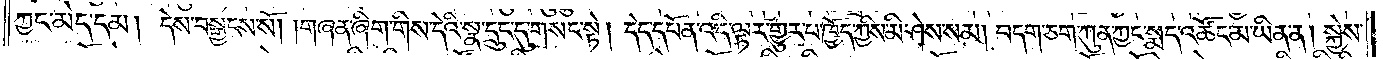ཀྱང་མེད་དམ། དེས་བསྒྱངས་སོ། །གཞན་ཞིག་གིས་དེའི་སྣ་དྲུང་དུ་གསང་སྟེ། དེད་དཔོན་འདི་ལྟར་གྱུར་པ་ཁྱོད་ཀྱིས་མི་ཤེས་སམ། བདག་ཅག་ཀུན་ཀྱང་སྨད་འཚོང་མ་ཡིན་ན། སྐྱེས་
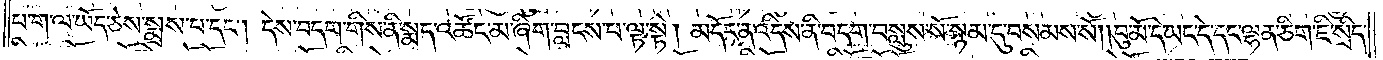པ་ག་ལ་ཡོད་ཅེས་སྨྲས་པ་དང༌། དེས་བདག་གིས་ནི་སྨད་འཚོང་མ་ཞིག་བླངས་པ་ལྟ་སྟེ། མདོར་ན་འདིས་ནི་བདག་བསླུས་སོ་སྙམ་དུ་བསམས་སོ། །བུ་མོ་དེ་ཡང་དེ་དང་ལྷན་ཅིག་ཇི་སྲིད་
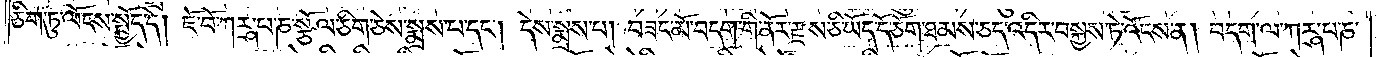ཅིག་ཏུ་ལོངས་སྤྱོད་དེ། ཇོ་བོ་ཀཪྴ་པ་ཎ་སྩོལ་ཅིག་ཅེས་སྨྲས་པ་དང༌། དེས་སྨྲས་པ། བཟང་མོ་བདག་གི་ནོར་རྫས་ཅི་ཡོད་དོ་ཅོག་ཐམས་ཅད་འདིར་བསྐྱས་ཏེ་འོངས་ན། བདག་ལ་ཀཪྴ་པ་ཎ་
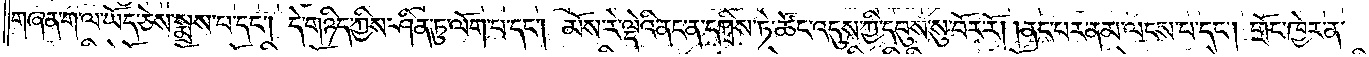གཞན་ག་ལ་ཡོད་ཅེས་སྨྲས་པ་དང༌། དེ་གཉིད་ཀྱིས་ཤིན་ཏུ་ལོག་པ་དང༌། མོས་རེ་ལྡེའི་ནང་ན་དཀྲིས་ཏེ་ཚོང་འདུས་ཀྱི་དབུས་སུ་བོར་རོ། །ནང་པར་ནམ་ལངས་པ་དང༌། གྲོང་ཁྱེར་ན་
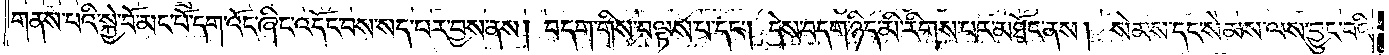གནས་པའི་སྐྱེ་བོ་མང་པོ་དག་འོང་ཞིང་འདོང་བས་སད་པར་བྱས་ནས། བདག་གིས་བལྟས་པ་དང༌། དེས་བདག་ཉིད་མི་རིགས་པར་མཐོང་ནས། སེམས་དང་སེམས་ལས་བྱུང་བའི་
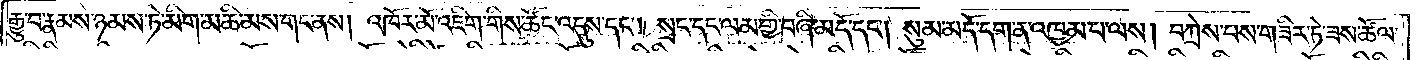རྒྱུ་བ་རྣམས་ཉམས་ཏེ་མིག་མཆི་མས་གང་ནས། འཁོར་མོ་འཇིག་གིས་ཚོང་འདུས་དང༌། སྲང་དང་ལམ་གྱི་བཞི་མདོ་དང༌། སུམ་མདོ་དག་ན་འཁྱམ་པ་ལས། བཀྲེས་པས་གཟིར་ཏེ་ཟས་ཚོལ་
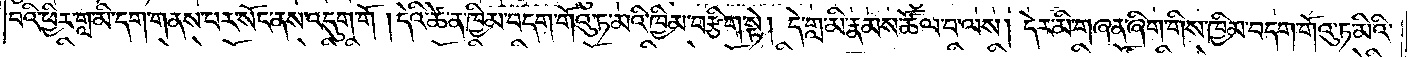པའི་ཕྱིར་གླ་མི་དག་གནས་པར་སོང་ནས་འདུག་གོ །དེའི་ཚེ་ན་ཁྱིམ་བདག་གོའུ་ཏ་མའི་ཁྱིམ་བརྩིག་སྟེ། དེ་གླ་མི་རྣམས་ཚོལ་བ་ལས། དེར་མི་གཞན་ཞིག་གིས་ཁྱིམ་བདག་གོའུ་ཏ་མིའི་
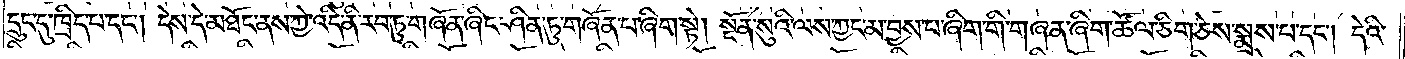དྲུང་དུ་ཁྲིད་པ་དང༌། དེས་དེ་མཐོང་ནས་ཀྱེ་འདི་ནི་རབ་ཏུ་གཞོན་ཞིང་ཤིན་ཏུ་གཞོན་པ་ཞིག་སྟེ། སྔོན་སུའི་ལས་ཀྱང་མ་བྱས་པ་ཞིག་གི་གཞན་ཞིག་ཚོལ་ཅིག་ཅེས་སྨྲས་པ་དང༌། དེའི་
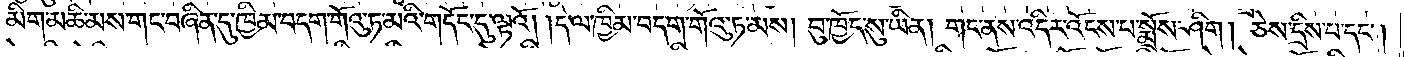མིག་མཆི་མས་གང་བཞིན་དུ་ཁྱིམ་བདག་གོའུ་ཏ་མའི་གདོང་དུ་ལྟའོ། །དེ་ལ་ཁྱིམ་བདག་གོའུ་ཏ་མས། བུ་ཁྱོད་སུ་ཡིན། གང་ནས་འདིར་འོངས་པ་སྨྲོས་ཤིག། ཅེས་དྲིས་པ་དང༌།
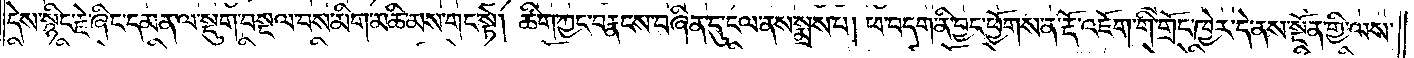དེས་སྙིང་རྗེ་ཞིང་དམན་ལ་སྡུག་བསྔལ་བས་མིག་མཆི་མས་གང་སྟེ། ཚིག་ཀྱང་བརྣངས་བཞིན་དུ་ངལ་ནས་སྨྲས་པ། ཕ་བདག་ནི་བྱང་ཕྱོགས་ན་རྡོ་འཇོག་གི་གྲོང་ཁྱེར་དེ་ནས་སྔོན་གྱི་ལས་
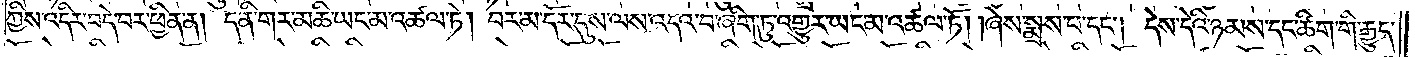ཀྱིས་འདིར་བདེ་བར་ཕྱིན་ན། ད་ནི་གར་མཆི་ཡང་མ་འཚལ་ཏེ། བར་མ་དོར་དུས་ལས་འདའ་བ་ཞིག་ཏུ་འགྱུར་ཡང་མ་འཚལ་ཏོ། །ཞེས་སྨྲས་པ་དང༌། དེས་དེའི་ཉམས་དང་ཚིག་གི་རྒྱུད་
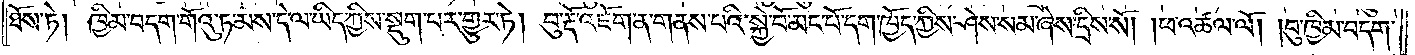ཐོས་ཏེ། ཁྱིམ་བདག་གོའུ་ཏ་མས་དེ་ལ་ཡིད་ཀྱིས་སྡུག་པར་གྱུར་ཏེ། བུ་རྡོ་འཇོག་ན་གནས་པའི་སྐྱེ་བོ་མང་པོ་དག་ཁྱོད་ཀྱིས་ཤེས་སམ་ཞེས་དྲིས་སོ། །ཕ་འཚལ་ལོ། །བུ་ཁྱིམ་བདག་
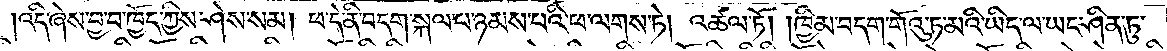འདི་ཞེས་བྱ་བ་ཁྱོད་ཀྱིས་ཤེས་སམ། ཕ་དེ་ནི་བདག་སྐལ་པ་ཉམས་པའི་ཕ་ལགས་ཏེ། འཚལ་ཏོ། །ཁྱིམ་བདག་གོའུ་ཏ་མའི་ཡིད་ལ་ཡང་ཤིན་ཏུ་
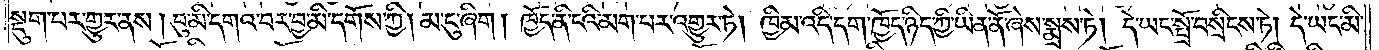སྡུག་པར་གྱུར་ནས། བུ་མི་དགའ་བར་བྱ་མི་དགོས་ཀྱི། མ་ངུ་ཞིག། ཁྱོད་ནི་ངའི་མག་པར་འགྱུར་ཏེ། ཁྱིམ་འདི་དག་ཁྱོད་ཉིད་ཀྱི་ཡིན་ནོ་ཞེས་སྨྲས་ཏེ། དེ་ཡང་སྤྲོ་བསྲིངས་ཏེ། དེ་ཡང་མི་
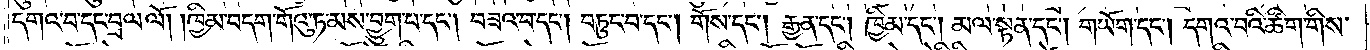དགའ་བ་དང་བྲལ་ལོ། །ཁྱིམ་བདག་གོའུ་ཏ་མས་བྱུག་པ་དང༌། བཟའ་བ་དང༌། བཏུང་བ་དང༌། གོས་དང༌། རྒྱན་དང༌། ཁྱིམ་དང༌། མལ་སྟན་དང༌། གཡོག་དང༌། དགའ་བའི་ཚིག་གིས་
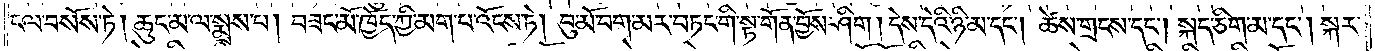ངལ་བསོས་ཏེ། ཆུང་མ་ལ་སྨྲས་པ། བཟང་མོ་ཁྱོད་ཀྱི་མག་པ་འོངས་ཏེ། བུ་མོ་བག་མར་བཏང་གི་སྟ་གོན་བྱོས་ཤིག །དེས་དེའི་ཉི་མ་དང༌། ཚེས་གྲངས་དང༌། སྐད་ཅིག་མ་དང༌། སྐར་
